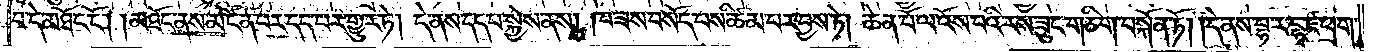བ་དེ་མཐོང་ངོ༌། །མཐོང་ནས་མངོན་པར་དད་པར་གྱུར་ཏེ། དེ་ནས་དད་པ་སྐྱེས་ནས། ཁ་ཟས་བསོད་པས་ཚིམ་པར་བྱས་ཏེ། ཆེན་པོ་ལ་འོས་པའི་རས་ཟུང་གཅིག་བསྐོན་ཏོ། །དེ་ནས་བྷ་ར་དྷྭ་ཛ་ཕྲག་
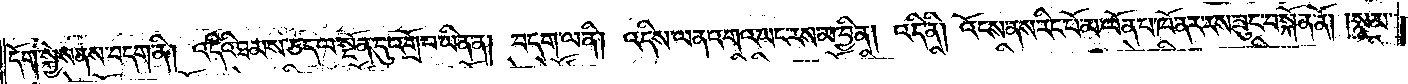དོག་སྐྱེས་ནས་བདག་ནི། འདིའི་ཐམས་ཅད་ལ་སྔོན་དུ་འགྲོ་བ་ཡིན་ན། བདག་ལ་ནི། འདིས་ལན་འགའ་ཡང་རས་མ་བྱིན། འདི་ནི། འོངས་ནས་རིང་པོ་མ་ལོན་པ་ཁོ་ནར་རས་ཟུང་བསྐོན་ནོ། །སྙམ་
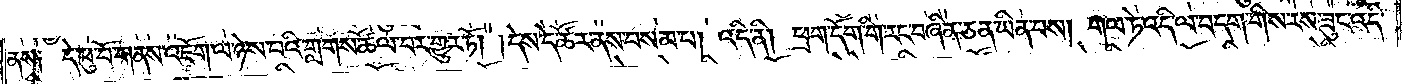ནས༑  དེ་ཕུ་བོ་གནས་འཇོག་ལ་ཉེས་པའི་གླགས་ཚོལ་བར་གྱུར་ཏོ། །དེས་དེ་ཚོར་ནས་བསམ་པ། འདི་ནི། ཕྲག་དོག་གི་རང་བཞིན་ཅན་ཡིན་པས། གལ་ཏེ་འདི་ལ་བདག་གིས་རས་ཟུང་འདི་
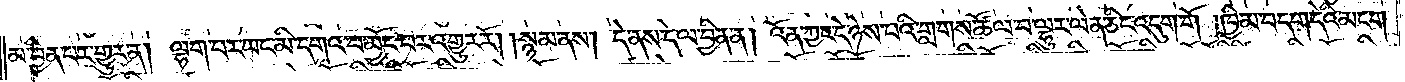མ་བྱིན་པར་གྱུར་ན། ལྷག་པར་ཡང་མི་དགའ་བ་མྱོང་བར་འགྱུར་རོ། །སྙམ་ནས། དེ་ནས་དེ་ལ་བྱིན་ན། འོན་ཀྱང་དེ་ཉེས་པའི་གླགས་ཚོལ་བ་ལྷུར་ལེན་ཅིང་འདུག་གོ །ཁྱིམ་བདག་དེའི་མངག་
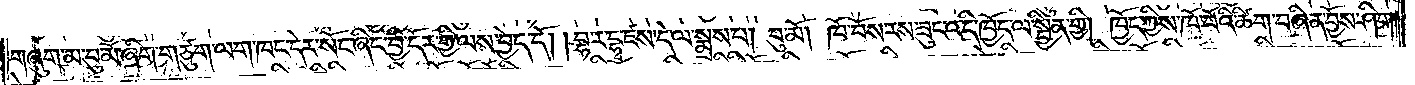གཞུག་མ་བུ་མོ་ཞིག་གཙུག་ལག་ཁང་དེར་སོང་ཞིང་བྱི་དོར་གྱི་ལས་བྱེད་དོ། །བྷ་ར་དྷྭ་ཛས་དེ་ལ་སྨྲས་པ། བུ་མོ། ཁོ་བོས་རས་ཟུང་འདི་ཁྱོད་ལ་སྦྱིན་གྱི། ཁྱོད་ཀྱིས་ཁོ་བོའི་ཚིག་བཞིན་བྱོས་ཤིག
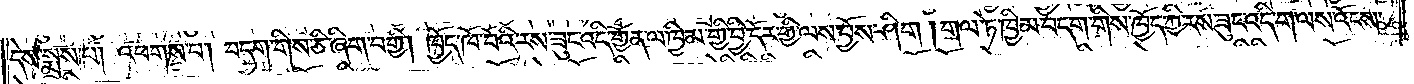དེས་སྨྲས་པ། འཕགས་པ། བདག་གིས་ཅི་ཞིག་བགྱི། ཁྱོད་ཁོ་བོའི་རས་ཟུང་འདི་གྱོན་ལ་ཁྱིམ་གྱི་བྱི་དོར་གྱི་ལས་བྱོས་ཤིག །གལ་ཏེ་ཁྱིམ་བདག་གིས་ཁྱོད་ཀྱི་རས་ཟུང་འདི་ག་ལས་འོངས་
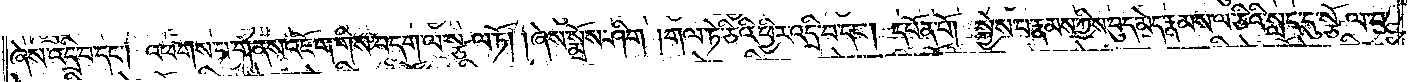ཞེས་འདྲི་བ་དང༌། འཕགས་པ་གནས་འཇོག་གིས་བདག་ལ་སྩལ་ཏོ། །ཞེས་སྨྲོས་ཤིག །གལ་ཏེ་ཅིའི་ཕྱིར་འདྲི་བ་དང༌། དཔོན་པོ། སྐྱེས་པ་རྣམས་ཀྱིས་བུད་མེད་རྣམས་ལ་ཅིའི་སླད་དུ་སྩོལ་བ་
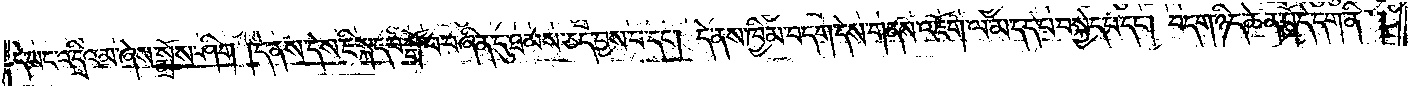དེ་ཡང་འདྲིའམ་ཞེས་སྨྲོས་ཤིག །དེ་ནས་དེས་ཇི་སྐད་བསྒོ་བ་བཞིན་དུ་ཐམས་ཅད་བྱས་པ་དང༌། དེ་ནས་ཁྱིམ་བདག་དེས་གནས་འཇོག་ལ་མ་དད་པ་བསྐྱེད་པ་དང༌། བདག་ཉིད་ཆེན་པོ་དེ་དག་ནི།
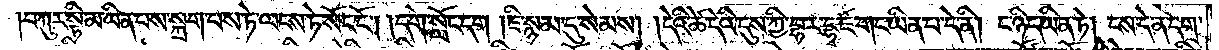བཀུར་སྟི་མ་ཡིན་པས་སྐྲག་པས་ཏེ་ལངས་ཏེ་སོང་ངོ༌། །དགེ་སློང་དག །ཇི་སྙམ་དུ་སེམས། །དེའི་ཚེ་དེའི་དུས་ཀྱི་བྷ་ར་དྷྭ་ཛ་གང་ཡིན་པ་དེ་ནི། ང་ཉིད་ཡིན་ཏེ། ངས་དེ་ན་དགྲ་
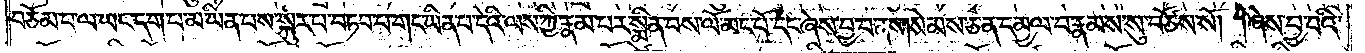བཅོམ་པ་ལ་ཡང་དག་པ་མ་ཡིན་པས་སྐུར་པ་བཏབ་པ་གང་ཡིན་པ་དེའི་ལས་ཀྱི་རྣམ་པར་སྨིན་པས་ལོ་མང་པོ་དང་ཞེས་བྱ་བ་ནས། སེམས་ཅན་དམྱལ་བ་རྣམས་སུ་བཙོས་སོ། །ཞེས་བྱ་བའི་
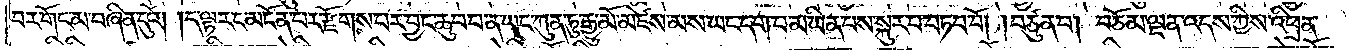བར་གོང་མ་བཞིན་དུའོ། །ད་ལྟར་ང་མངོན་པར་རྫོགས་པར་བྱང་ཆུབ་པ་ན་ཡང་ཀུན་ཏུ་རྒྱུ་མོ་མཛེས་མས་ཡང་དག་པ་མ་ཡིན་པས་སྐུར་པ་བཏབ་བོ། །བཙུན་པ། བཅོམ་ལྡན་འདས་ཀྱིས་འཕྲིན་
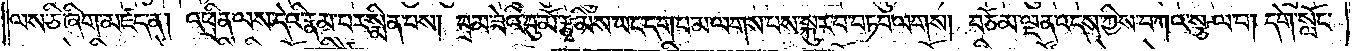ལས་ཅི་ཞིག་མཛད་ན། འཕྲིན་ལས་དེའི་རྣམ་པར་སྨིན་པས། བྲམ་ཟེའི་བུ་མོ་རྩྭ་མེས་ཡང་དག་པ་མ་ལགས་པས་སྐུར་བ་བཏབ་ལགས། བཅོམ་ལྡན་འདས་ཀྱིས་བཀའ་སྩལ་པ། དགེ་སློང་
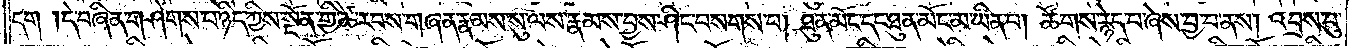དག །དེ་བཞིན་གཤེགས་པ་ཉིད་ཀྱིས་སྔོན་གྱི་ཚེ་རབས་གཞན་རྣམས་སུ་ལས་རྣམས་བྱས་ཤིང་བསགས་པ། ཐུན་མོང་དང་ཐུན་མོང་མ་ཡིན་པ། ཚོགས་རྙེད་པ་ཞེས་བྱ་བ་ནས། འབྲས་བུ་
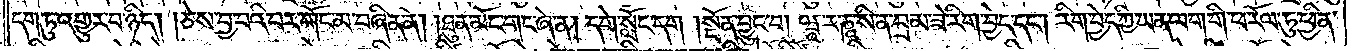དག་ཏུ་འགྱུར་བ་ཉིད། །ཅེས་བྱ་བའི་བར་གོང་མ་བཞིན་ནེ། །ཐུན་མོང་གང་ཞེ་ན། དགེ་སློང་དག །སྔོན་བྱུང་བ། ཝཱ་ར་ཎཱ་སི་ན་བྲམ་ཟེ་རིག་བྱེད་དང༌། རིག་བྱེད་ཀྱི་ཡན་ལག་གི་ཕ་རོལ་ཏུ་ཕྱིན་
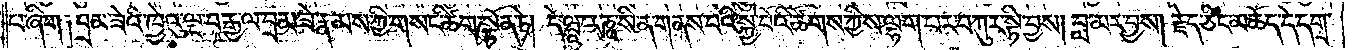པ་ཞིག ༑བྲམ་ཟེའི་ཁྱེའུ་ལྔ་བརྒྱ་ལ་བྲམ་ཟེ་རྣམས་ཀྱི་གསང་ཚིག་སྟོན་ཏེ། དེ་ཝཱ་ར་ཎཱ་སི་ན་གནས་པའི་སྐྱེ་བོའི་ཚོགས་ཀྱིས་ལྷག་པར་བཀུར་སྟི་བྱས། བླ་མར་བྱས། རྗེད་ཅིང་མཆོད་དེ་དགྲ་
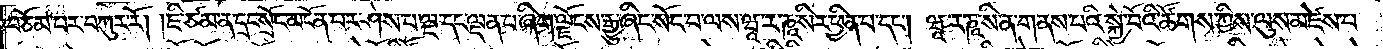བཅོམ་པར་བཀུར་རོ། །ཇི་ཙམ་ན་དྲང་སྲོང་མངོན་པར་ཤེས་པ་ལྔ་དང་ལྡན་པ་ཞིག་ལྗོངས་རྒྱུ་ཞིང་སོང་བ་ལས་ཝཱ་ར་ཎཱ་སིར་ཕྱིན་པ་དང༌། ཝཱ་ར་ཎཱ་སི་ན་གནས་པའི་སྐྱེ་བོའི་ཚོགས་ཀྱིས་ལུས་མཛེས་པ་
